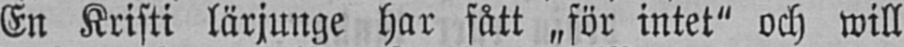En Kristi lärjunge har fått „för intet" och will
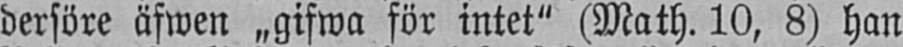derföre äfwen „gifwa för intet" (Math. 10, 8) han
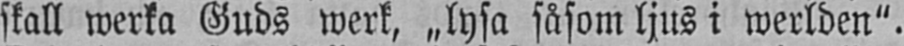skall werka Guds werk, „lysa såsom ljus i werlden".
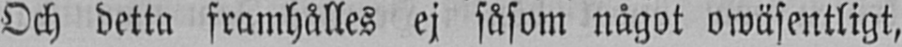Och detta framhålles ej såsom något owäsentligt,
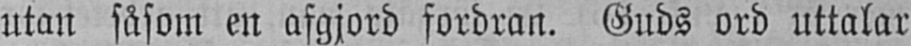utan såsom en afgjord fordran. Guds ord uttalar
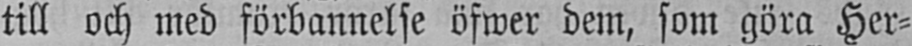till och med förbannelse öfwer dem, som göra Her-
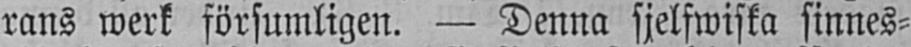rans werk försumligen. — Denna sjelfwiska sinnes-
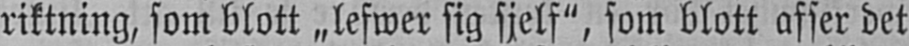riktning, som blott „lefwer sig sjelf", som blott afser det
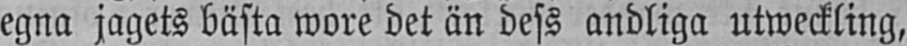egna jagets bästa wore det än dess andliga utweckling,
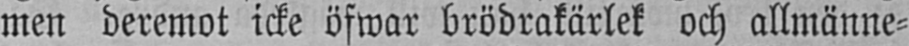men deremot icke öfwar brödrakärlek och allmänne-
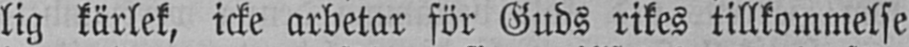lig kärlek, icke arbetar för Guds rikes tillkommelse
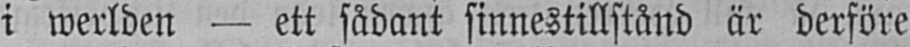i werlden — ett sådant sinnestillstånd är derföre
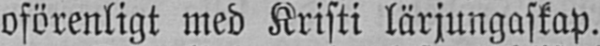oförenligt med Kristi lärjungaskap.
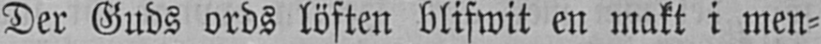Der Guds ords löften blifwit en makt i men-
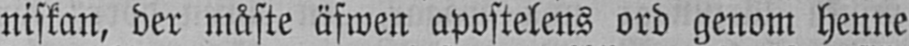niskan, der måste äfwen apostelens ord genom henne
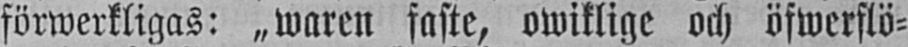förwerkligas: „waren faste, owiklige och öfwerflö-
